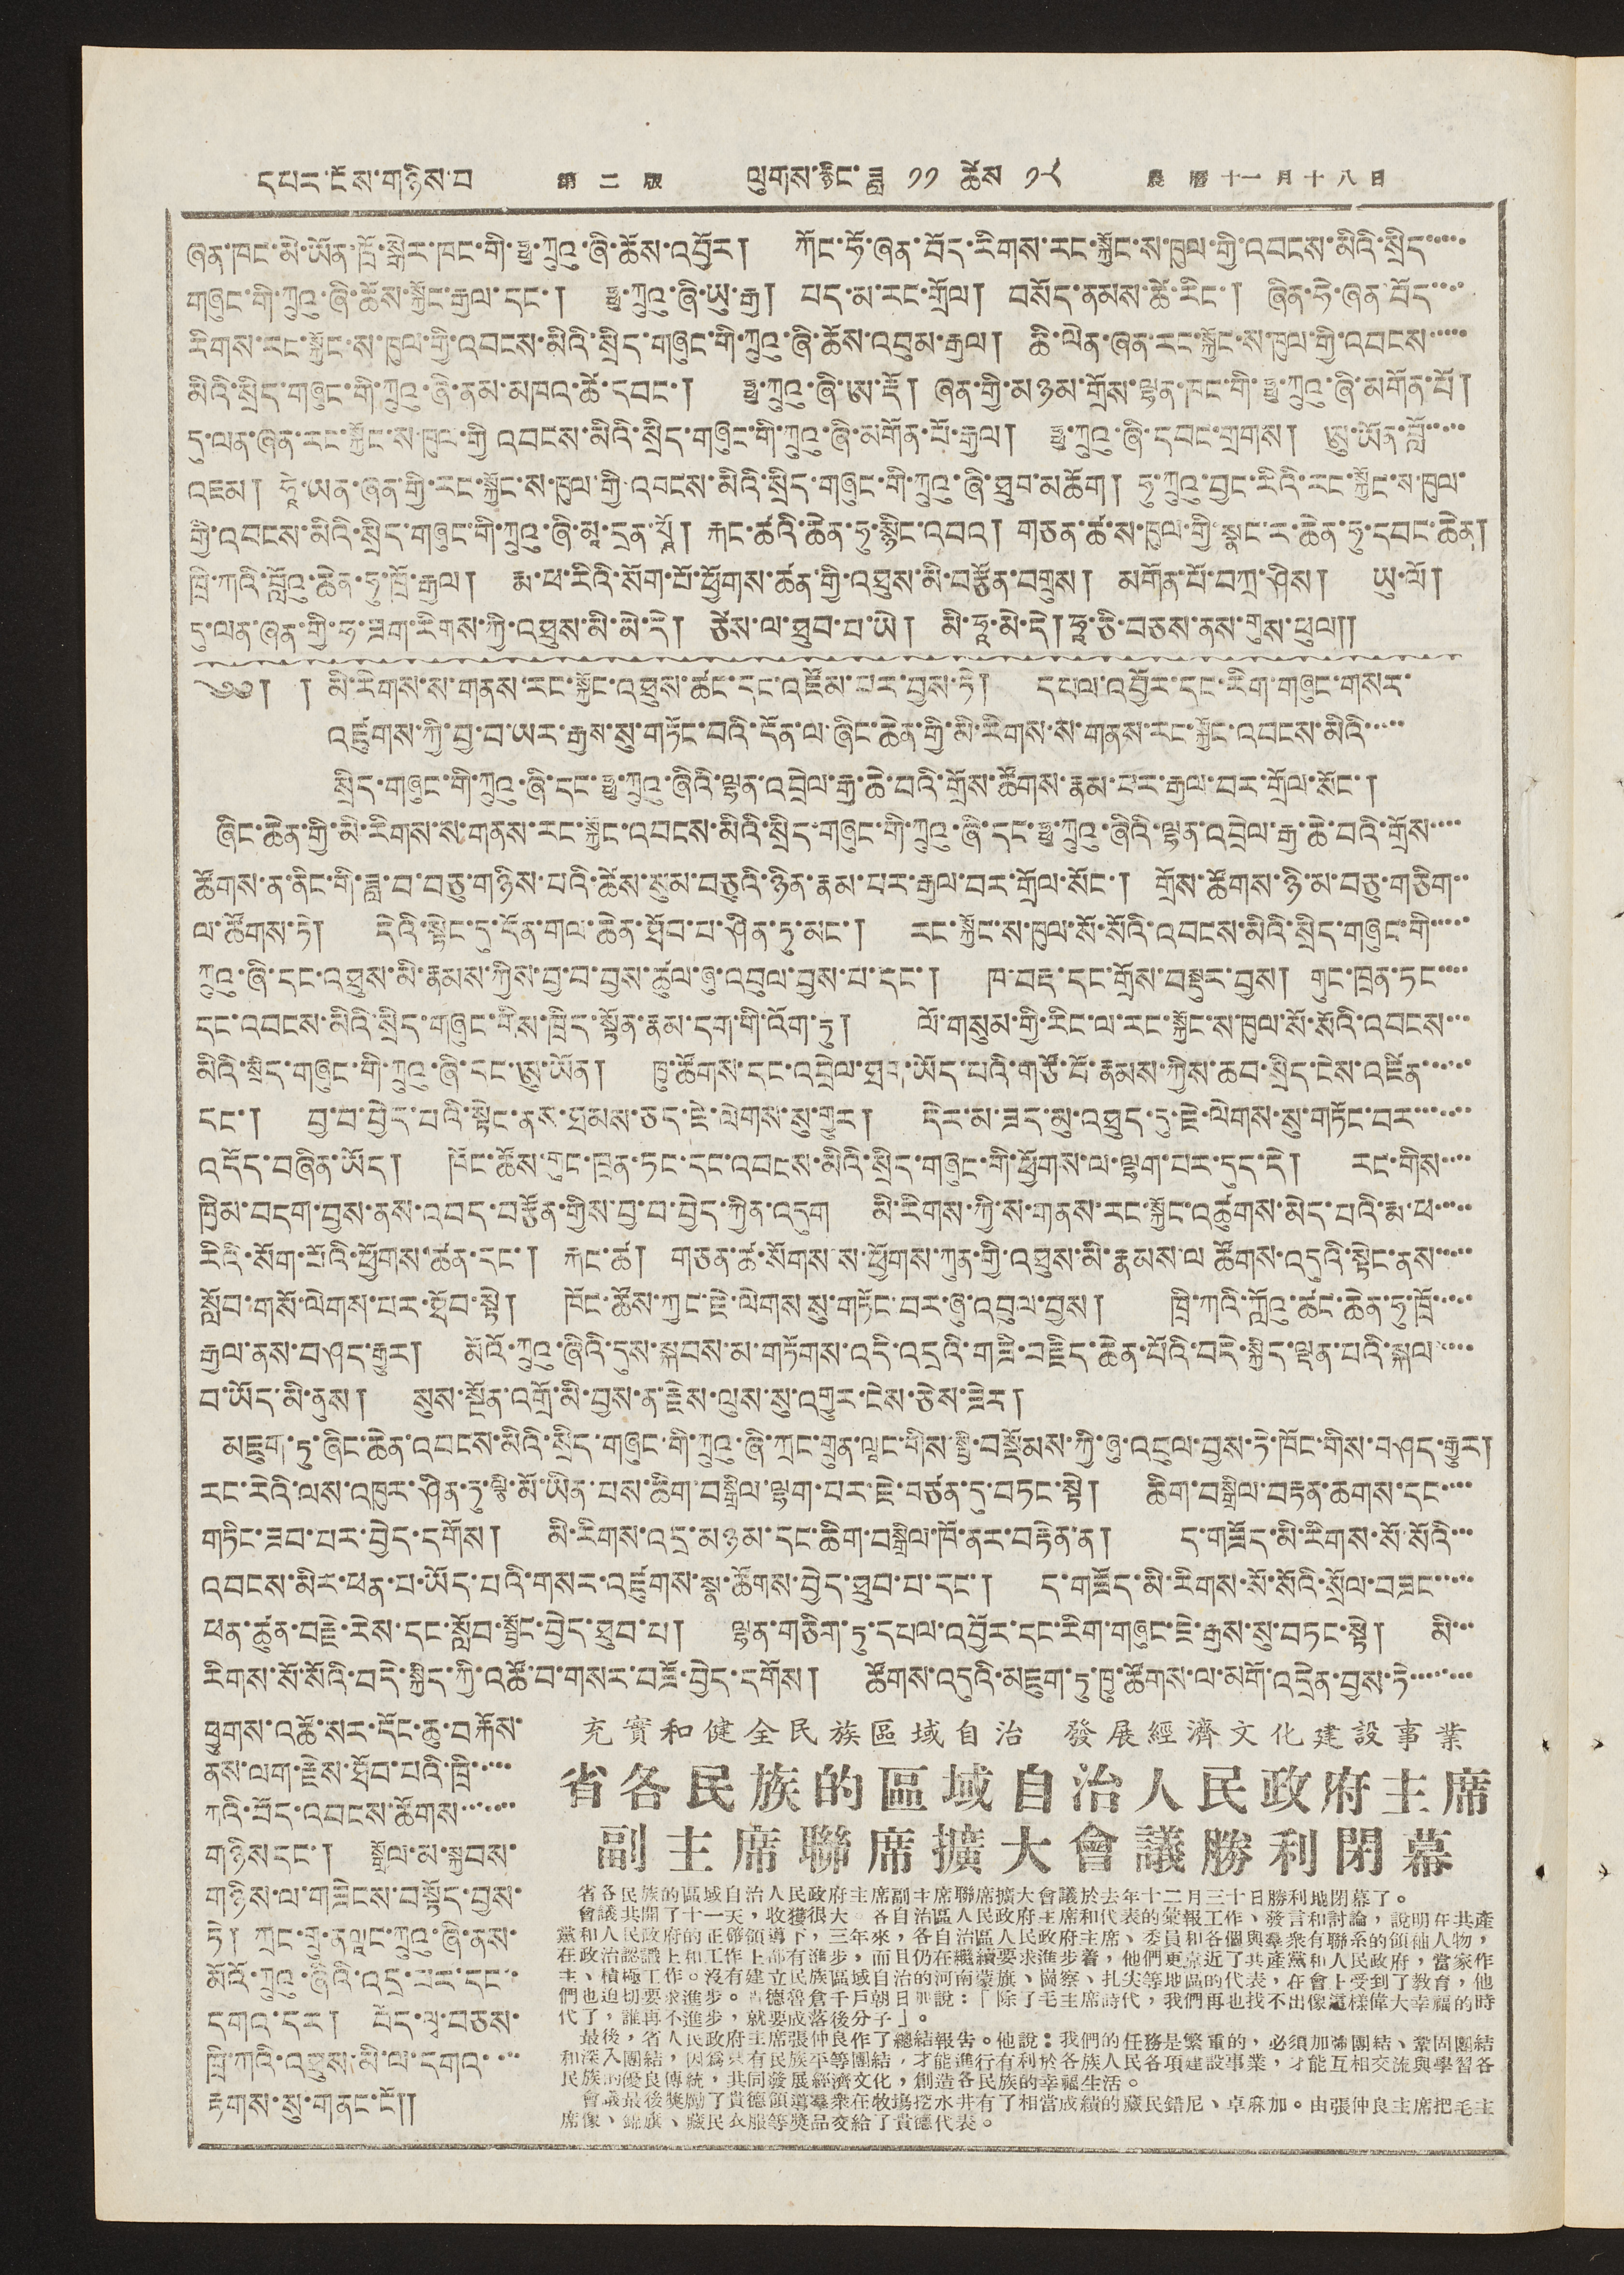དཔར་ངོས་གཉིས་པ 第 二 版 ལུགས་རྙིང་ཟླ ༡༡ ཚེས ༡༨ 農 曆 十一 月 十 八 日
ཞན་ཁང་མེ་ཡོན་ཁྲོ་སྒེར་ཁང་གི་ཧྥུ་ཀྲུའུ་ཞི་ཆོས་འབྱོར། ཀོང་ཧོ་ཞན་བོད་རིགས་རང་སྐྱོང་ས་ཁུལ་གྱི་འབངས་མིའི་སྲིད་་་་་
གཞུང་གི་ཀྲུའུ་ཞི་ཆོས་སྐྱོང་རྒྱལ་དང་། ཧྥུ་ཀྲུའུ་ཞི་ཡུ་རྒྱ། པད་མ་རང་གྲོལ། བསོད་ནམས་ཚེ་རིང་། ཞིན་ཧེ་ཞན་བོད་་་་
རིགས་རང་སྐྱོང་ས་ཁུལ་གྱི་འབངས་མིའི་སྲིད་གཞུང་གི་ཀྲུའུ་ཞི་ཆོས་འབུམ་རྒྱལ། ཆི་ལེན་ཞན་རང་སྐྱོང་ས་ཁུལ་གྱི་འབངས་་་་་
མིའི་སྲིད་གཞུང་གི་ཀྲུའུ་ཞི་ནམ་མཁའ་ཚེ་དབང་། ཧྥུ་ཀྲུའུ་ཞི་ཨ་རྡོ། ཞན་གྱི་མཉམ་གྲོས་ལྷན་ཁང་གི་ཧྥུ་ཀྲུའུ་ཞི་མགོན་པོ།
དུ་ལན་ཞན་རང་སྐྱོང་ས་ཁུང་གྱི འབངས་མིའི་སྲིད་གཞུང་གི་ཀྲུའུ་ཞི་མགོན་པོ་རྒྱལ། ཧྥུ་ཀྲུའུ་ཞི་དབང་གྲགས། ཨུ་ཡོན་བློ་་་་་
འཇམ། ཧཱེ་ཡན་ཞན་གྱི་རང་སྐྱོང་ས་ཁུལ་གྱི་འབངས་མིའི་སྲིད་གཞུང་གི་ཀྲུའུ་ཞི་ཐུབ་མཆོག། ཧུ་ཀྲུའུ་བྱང་རིའི་རང་སྐྱོང་ས་ཁུལ་
གྱི་བངས་མིའི་སྲིད་གཞུང་གི་ཀྲུའུ་ཞི་མཱ་དྲན་པཱོ། རྐང་ཚའི་ཆེན་ཧུ་སྙིང་འབའ། གཅན་ཚ་ས་ཁུལ་གྱི་སྣང་ར་ཆེན་ཧུ་དབང་ཆེན།
ཁྲི་ཀའི་བློའུ་ཆེན་ཧུ་ཁྲོ་རྒྱལ། རྨ་ཕ་རིའི་སོག་པོ་ཕྱོགས་ཚན་གྱི་འཐུས་མི་བརྩོན་བགྲུས། མགོན་པོ་བཀྲ་ཤིས། ཡུ་ལོ།
དུ་ལན་ཞན་གྱི་ཧ་ཟག་རིགས་ཀྱི་འཐུས་མི་མེ་དེ། ཙེས་ལ་ཐུབ་པ་ཡེ། མི་ཧཱ་མེ་དེ། ཧཱ་ཅི་བཅས་ནས་གུས་ཕུལ༎
༄༅། ། མི་རིགས་ས་གནས་རང་སྐྱོང་འཐུས་ཚང་དང་འཛོམ་པར་བྱས་ཏེ། དཔལ་འབྱོར་དང་རིག་གཞུང་གསར་
འཛུགས་ཀྱི་བྱ་བ་ཡར་རྒྱས་སུ་གཏོང་བའི་དོན་ལ་ཞིང་ཆེན་གྱི་མི་རིགས་ས་གནས་རང་སྐྱོང་འབངས་མིའི་་་་་
སྲིད་གཞུང་གི་ཀྲུའུ་ཞི་དང་ཧྥུ་ཀྲུའུ་ཞིའི་ལྷན་འབྲེལ་རྒྱ་ཆེ་བའི་གྲོས་ཚོགས་རྣམ་པར་རྒྱལ་བར་གྲོལ་མོང་།
ཞིང་ཆེན་གྱི་མི་རིགས་ས་གནས་རང་སྐྱོང་འབངས་མིའི་སྲིད་གཞུང་གི་ཀྲུའུ་ཞི་དང་ཧྥུ་ཀྲུའུ་ཞིའི་ལྷན་འབྲེལ་རྒྱ་ཆེ་བའི་གྲོས་་་་
ཚོགས་ན་ནིང་གི་ཟླ་བ་བཅུ་གཉིས་པའི་ཚེས་སུམ་བཅུའི་ཉིན་རྣམ་པར་རྒྱལ་བར་གྲོལ་སོང་། གྲོས་ཚོགས་ཉི་མ་བཅུ་གཅིག་་
ལ་ཚོགས་ཏེ། དེའི་སྟེང་དུ་དོན་གལ་ཆེན་ཐོབ་པ་ཤིན་ཏུ་མང་། རང་སྐྱོང་ས་ཁུལ་སོ་སོའི་འབངས་མིའི་སྲིད་གཞུང་གི་་་་་
ཀྲུའུ་ཞི་དང་འཐུས་མི་རྣམས་ཀྱིས་བྱ་བ་བྱས་ཚུལ་ཞུ་འབུལ་བྱས་པ་དང་། ཁ་བརྡ་དང་གྲོས་བསྡུར་བྱས། གུང་ཁྲན་ཏང་་་་
དང་འབངས་མིའི་སྲིད་གཞུང་གིས་ཁྲིད་སྟོན་རྣམ་དག་གི་འོག་ཏུ། ལོ་གསུམ་གྱི་རིང་ལ་རང་སྐྱོང་ས་ཁུལ་སོ་སོའི་འབངས་་་
མིའི་སྲིད་གཞུང་གི་ཀྲུའུ་ཞི་དང་ཨུ་ཡོན། ཁྱུ་ཚོགས་དང་འབྲེལ་ཐག་ཡོད་པའི་གཙོ་བོ་རྣམས་ཀྱིས་ཆབ་སྲིད་ངེས་འཛིན་་་་་་
དང་། བྱ་བ་བྱེད་པའི་སྟེང་ནས་ཐམས་ཅད་ཇེ་ལེགས་སུ་གྱུར། དེར་མ་ཟད་མུ་འཐུད་དུ་ཇེ་ལེགས་སུ་གཏོང་བར་་་་་་་
འདོད་བཞིན་ཡོད། ཁོང་ཚོས་གུང་ཁྲན་ཏང་དང་འབངས་མིའི་སྲིད་གཞུང་གི་ཕྱོགས་ལྷག་པར་དུད་དེ། རང་གིས་་་་
ཁྱིམ་བདག་བྱས་ནས་འབད་བརྩོན་གྱིས་བྱ་བ་བྱེད་ཀྱིན་འདུག མི་རིགས་ཀྱི་ས་གནས་རང་སྐྱོང་འཚུགས་མེད་པའི་རྨ་ཕ་་་་་
རིའི་སོག་པོའི་ཕྱོགས་ཚན་དང་། རྐང་ཚ། གཅན་ཚ་སོགས་ས་ཕྱོགས་ཀུན་གྱི་འཐུས་མི་རྣམས་ལ ཚོགས་འདུའི་སྟེང་ནས་་་་་
སློབ་གསོ་ལེགས་པར་ཐོབ་སྟེ། ཁོང་ཚོས་ཀྱང་ཇེ་ལེགས སུ་གཏོང་བར་ཞུ་འབུལ་བྱས། ཁྲི་ཀའི་ཀློའུ་ཚང་ཆེན་ཧུ་ཁྲོ་་་་་
རྒྱལ་ནས་བཤད་རྒྱུར། མོའོ་ཀྲུའུ་ཞིའི་དུས་སྐབས་མ་གཏོགས་འདི་འདྲའི་གཟི་བརྗིད་ཆེན་པོའི་བདེ་སྐྱིད་ལྡན་པའི་སྐལ་་་་་
བ་ཡོད་མི་ནུས། སུས་སྔོན་འགྲོ་མི་བྱས་ན་རྗེས་ལུས་སུ་འགྱུར་ངེས་ཅེས་ཟེར།
མཇུག་ཏུ་ཞིང་ཆེན་འབངས་མིའི་སྲིད་གཞུང་གི་ཀྲུའུ་ཞི་ཀྲང་གྲུན་ལཱང་གིས་སྤྱི་བསྡོམས་ཀྱི་ཞུ་འབུལ་བྱས་ཏེ་ཁོང་གིས་བཤད་རྒྱུར།
རང་རེའི་ལས་འཁུར་ཤིན་ཏུ་ལྕི་མོ་ཡིན་པས་ཆིག་བསྒྲིལ་ལྷག་པར་ཇེ་བཙན་དུ་བཏང་སྟེ། ཆིག་བསྒྲིལ་བརྟན་ཆགས་དང་་་་
གཏིང་ཟབ་པར་བྱེད་དགོས། མི་རིགས་འདྲ་མཉམ་དང་ཆིག་བསྒྲིལ་ཁོ་ནར་བརྟེན་ན། ད་གཟོད་མི་རིགས་སོ་སོའི་་་
འབངས་མིར་ཕན་པ་ཡོད་པའི་གསར་འཛུགས་སྣ་ཚོགས་བྱེད་ཐུབ་པ་དང་། ད་གཟོད་མི་རིགས་སོ་སོའི་སྲོལ་བཟང་་་་་
ཕན་ཚུན་བརྗེ་རེས་དང་སློབ་སྦྱོང་བྱེད་ཐུབ་པ། ལྷན་གཅིག་ཏུ་དཔལ་འབྱོར་དང་རིག་གཞུང་ཇེ་རྒྱས་སུ་བཏང་སྟེ། མི་་་
རིགས་སོ་སོའི་བདེ་སྐྱིད་ཀྱི་འཚོ་བ་གསར་བཟོ་བྱེད་དགོས། ཚོགས་འདུའི་མཇུག་ཏུ་ཁྱུ་ཚོགས་ལ་མགོ་འདྲེན་བྱས་ཏེ་་་་་་་་
ཕྱུགས་འཚོ་སར་དོང་ཆུ་བརྐོས་
ནས་ལག་རྗེས་ཐོབ་པའི་ཁྲི་་་་་
ཀའི་བོད་འབངས་ཚོགས་་་་་་་
གཉིས དང་། སྒྲོལ་མ་སྐྱབས་
གཉིས་ལ་གཟེངས་བསྟོད་བྱས་
ཏེ། ཀྲང་གྲུ་ནལཱང་ཀྲུའུ་ཞི་ནས་
མའོ་ཀྲུའུ་ཞིའི་འདྲ་པར་དང་་
དགའ་དར། བོད་ལྭ་བཅས་
ཁྲི་ཀའི་འཐུས་མི་ལ་དགའ་་་་
རྟགས་སུ་གནང་ངོ༎
充實和健全民族區域自治 發展經濟文化建設事業
省各民族的區域自治人民政府主席
副主席聯席擴大會議勝利閉幕
省各民族的區域自治人民政府主席副主席聯席擴大會議於去年十二月三十日勝利地閉幕了。
會議共開了十一天，收穫很大。各自治區人民政府主席和代表的彙報工作、發言和討論，說明在共產
黨和人民政府的正確領導下，三年來，各自治區人民政府主席、委員和各個與羣衆有聯繫的領袖人物，
在政治認識上和工作上都有進步，而且仍在繼續要求進步着，他們更靠近了共產黨和人民政府，當家作
主、積極工作。沒有建立民族區域自治的河南蒙旗、崗察、扎尖等地區的代表，在會上受到了教育，他
們也迫切要求進步。貴德魯倉千戶朝日加說：「除了毛主席時代，我們再也找不出像這樣偉大幸福的時
代了，誰再不進步，就要成爲落後分子」。
最後，省人民政府主席張仲良作了總結報告。他說：我們的任務是繁重的，必須加強團結、鞏固團結
和深入團結，因爲只有民族平等團結，才能進行有利於各族人民各項建設事業，才能互相交流與學習各
民族的優良傳統，共同發展經濟文化，創造各民族的幸福生活。
會議最後獎勵了貴德領導羣衆在牧塲挖水井有了相當成績的藏民錯尼、卓麻加。由張仲良主席把毛主
席像、錦旗、藏民衣服等獎品交給了貴德代表。
